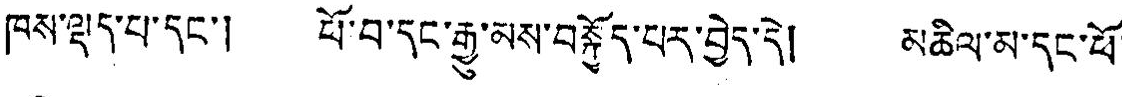ཁས་ལྡད་པ་དང་། ཕོ་བ་དང་རྒྱུ་མས་བསྐྱོད་པར་བྱེད་དེ། མཆིལ་མ་དང་ཕོ་
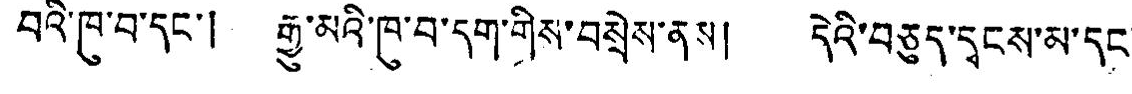བའི་ཁུ་བ་དང་། རྒྱུ་མའི་ཁུ་བ་དག་གིས་བསྲེས་ནས། དེའི་བཅུད་དྭངས་མ་དང་
